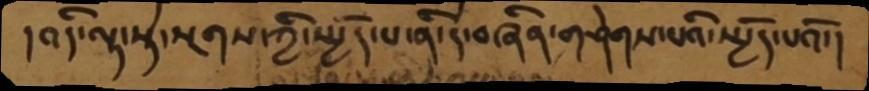།འདི་ལྟ་སྟེ་སྔགས་ཀྱི་སྤྱོད་པ་ནི་དེ་བཞིན་གཤེགས་པའི་སྤྱོད་པའོ་།
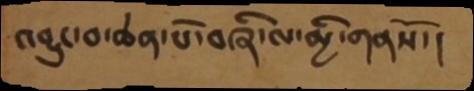འབྱུང་བ་ཆེན་པོ་བཞི་ལ་མྱི་གནསོ་།
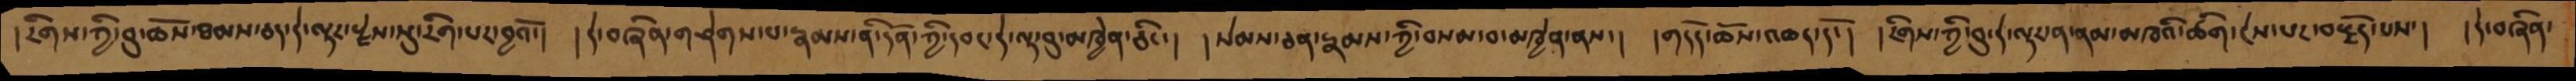།རིགས་ཀྱི་བུ་ཆོས་ཐམས་ཅད་དེ་ལྟར་རྗེས་སུ་རིག་པར་བྱའོ་།  །དེ་བཞིན་གཤེགས་པ་རྣམས་ནི་དོན་ཀྱི་དབང་དེ་ལྟ་བུ་མཁྱེན་ཅིང་།  །སེམས་ཅན་རྣམས་ཀྱི་བསམ་བ་མཁྱེན་ནས་།  །གདོད་ཆོས་འཆད་དོ་།  །རིགས་ཀྱི་བུ་དེ་ལྟར་ན་ནམ་མཁའི་ཚིག་ངེས་པར་བརྗོད་པས་།   །དེ་བཞིན་
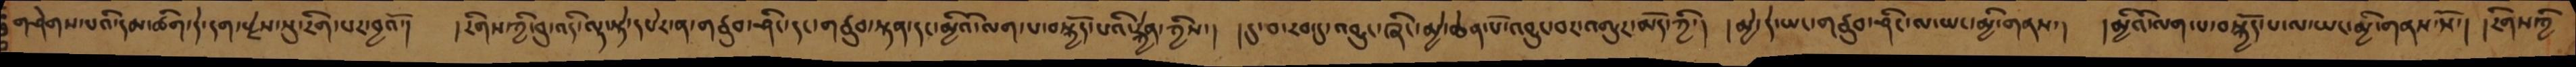གཤེགས་པའི་དམ་ཚིག་དེ་དག་རྗེས་སུ་རིག་པར་བྱའོ་།   རིགས་ཀྱི་བུ་འདི་ལྟ་སྟེ་དཔེར་ན་གཙུབ་ཤིང་དང་གཙུབ་སྟན་དང་མྱིའི་ལག་པ་བསྐྱོད་པའི་རྐྱེན་ཀྱིས་།  །དུ་བ་རབ་དུ་འབྱུང་ཞིང་མྱེ་ཆེན་པོ་འབྱུང་བར་འགྱུར་མོད་ཀྱི་།  །མྱེ་དེ་ཡང་གཙུབ་ཤིང་ལ་ཡང་མྱི་གནས་།  །མྱིའི་ལག་པ་བསྐྱོད་པ་ལ་ཡང་མྱི་གནས་སོ་།  །རིགས་ཀྱི་
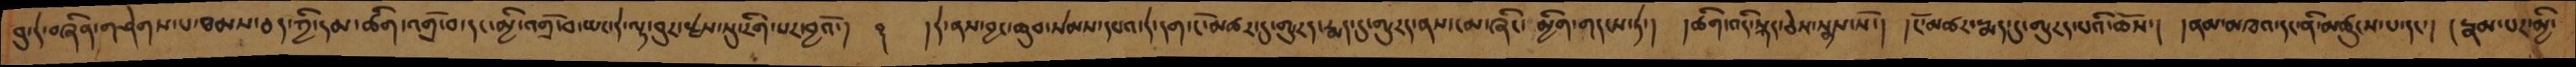བུ་དེ་བཞིན་གཤེགས་པ་ཐམས་ཅད་ཀྱི་དམ་ཚིག་འགྲོ་བ་དང་མྱི་འགྲོ་བ་ཡང་དེ་ལྟ་བུར་རྗེས་སུ་རིག་པར་བྱའོ་།  ࿑   དེ་ནས་བྱང་ཆུབ་སེམས་དཔའ་དེ་དག་ངོ་མཚར་དུ་གྱུརད་རྨད་དུ་གྱུརད་ནས་ངམ་ཞིང་མྱིག་གདངས་ཏེ་།  །ཚིག་འདི་སྐད་ཅེས་སྨྲས་སོ་། །ངོ་མཚར་རྨད་དུ་གྱུརད་པའི་ཆོས་། །ནམ་མཁའ་དང་ནི་མཚུངས་པ་དང་། །རྣམ་པར་མྱི་
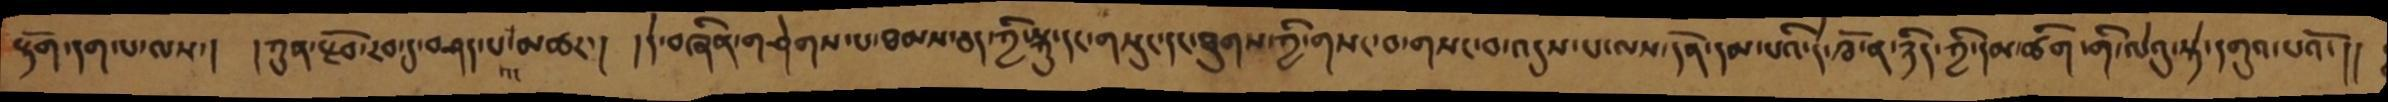རྟོག་དག་པ་ལས་།  །ཀུན་རྫོབ་རབ་དུ་བཤད་པའང་མཚར་།  །དེ་བཞིན་གཤེགས་པ་ཐམས་ཅད་ཀྱི་སྐུ་དང་གསུང་དང་ཐུགས་ཀྱི་གསང་བ་གསང་བ་འདུས་པ་ལས་དོན་དམ་པའི་དེ་ཁོ་ན་ཉིད་ཀྱི་དམ་ཚིག་གི་ལེའུ་སྟེ་དགུའ་པའོ་།།
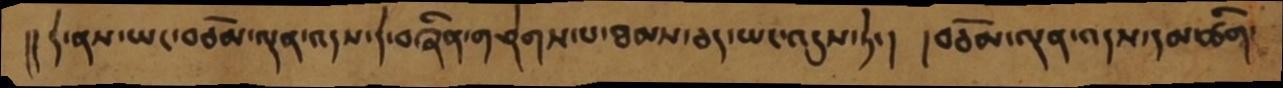།། དེ་ནས་ཡང་བཅོམ་ལྡན་འདས་དེ་བཞིན་གཤེགས་པ་ཐམས་ཅད་ཡང་འདུས་ཏེ་།  །བཅོམ་ལྡན་འདས་དམ་ཚིག་
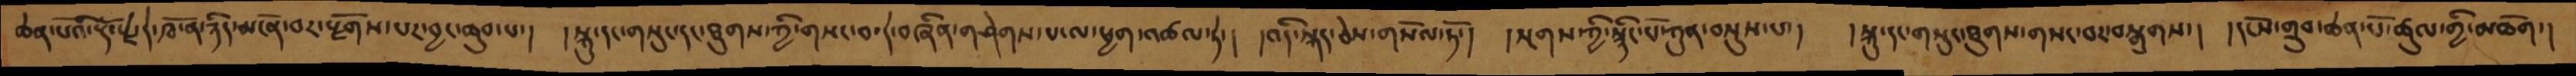ཆེན་པོའི་རྡོ་རྗེ་དེ་ཁོ་ན་ཉིད་མངོན་པར་རྫོགས་པར་བྱང་ཆུབ་པ་།  །སྐུ་གསུང་ཐུགས་ཀྱི་གསང་བ་དེ་བཞིན་གཤེགས་པ་ལ་ཕྱག་འཚལ་ཏེ་།  །འདི་སྐད་ཅེས་གསོལ་ཏོ་།  །སྔགས་ཀྱི་སྙིང་པོ་ཀུན་བསྡུས་པ་།  །སྐུ་དང་གསུང་ཐུགས་གསང་བར་བསྒྲགས་། །དངོས་གྲུབ་ཆེན་པོ་ཚུལ་གྱི་མཆོག་།
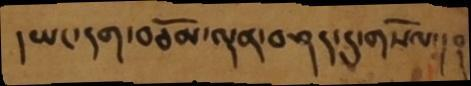།ཡང་དག་བཅོམ་ལྡན་བཤད་དུ་གསོལ་།  ༈
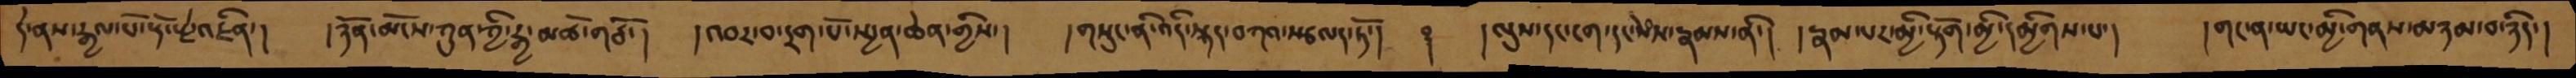དེ་ནས་རྒྱལ་པོ་རྡོ་རྗེ་འཛིན་། །ཉོན་མོངས་ཀུན་ཀྱི་རྒྱ་མཚོ་གཙོ་།  །འབར་བ་དྲག་པོ་སྤྱན་ཆེན་གྱིས་།  །གསུང་ནི་འདི་སྐད་བཀའ་སྩལད་ཏོ་།  ༈  །ལུས་དང་ངག་དང་སེཾས་རྣམས་ནི་། །རྣམ་པར་མྱི་རྟོག་མྱི་དམྱིགས་པ་།   །གང་ན་ཡང་མྱི་གནས་མཉམ་བ་ཉིད་།
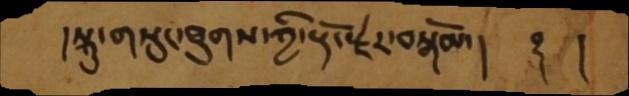།སྐུ་གསུང་ཐུགས་ཀྱི་རྡོ་རྗེར་བསྒོམ་།    ༈    །
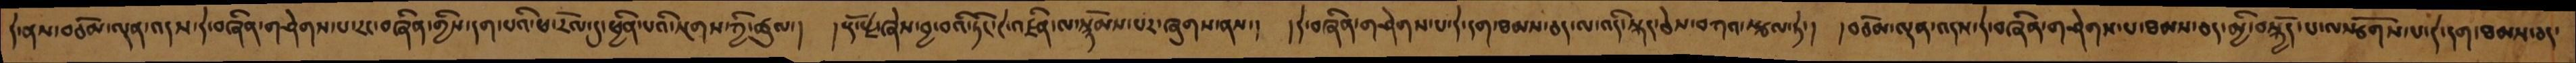དེ་ནས་བཅོམ་ལྡན་འས་དེ་བཞིན་གཤེགས་པ་རང་བཞིན་གྱིས་དག་པའི་ཕ་རོལ་དུ་ཕྱིན་པའི་སྔགས་ཀྱི་ཚུལ་།  །རྡོ་རྗེ་ཞེས་བྱ་བའི་ཏིང་ངེ་འཛིན་ལ་སྙོམས་པར་ཞུགས་ནས་།  །དེ་བཞིན་གཤེགས་པ་དེ་དག་ཐམས་ཅད་ལ་འདི་སྐད་ཅེས་བཀའ་སྩལ་ཏེ་།  །བཅོམ་ལྡན་འདས་དེ་བཞིན་གཤེགས་པ་ཐམས་ཅད་མྱི་བསྐྱོད་པ་ལསྩོགས་པ་དེ་དག་ཐམས་ཅད་
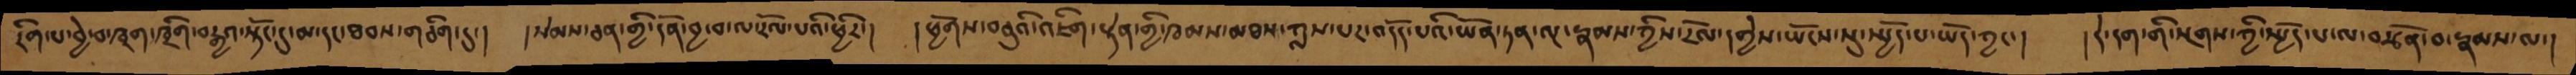རིག་པ་བྱེ་བ་ཁྲག་ཁྲིག་བརྒྱའ་སྟོང་དུ་མ་དང་ཐབས་གཅིག་ཏུ་།  །སེམས་ཅན་གྱི་དོན་བྱ་བ་ལ་རོལ་པའི་ཕྱིར་།  །ཕྱོགས་བཅུའི་འཇིག་རྟེན་གྱི་ཁམས་མཐའ་ཀླས་པར་འདོད་པའི་ཡོན་ཏན་ལྔ་རྣམས་ཀྱིས་རོལ་དགྱེས་ཡོངས་སུ་སྤྱོད་པ་ཡོད་ཀྱང་།  །དེ་དག་གི་སྔགས་ཀྱི་སྤྱོད་པ་ལ་བརྩོན་བ་རྣམས་ལ་།
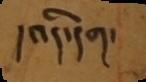།འདི་དག་
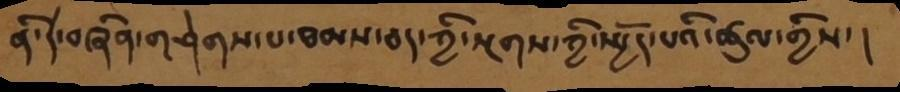ནི་དེ་བཞིན་གཤེགས་པ་ཐམས་ཅད་ཀྱི་སྔགས་ཀྱི་སྤྱོད་པའི་ཚུལ་གྱིས་།
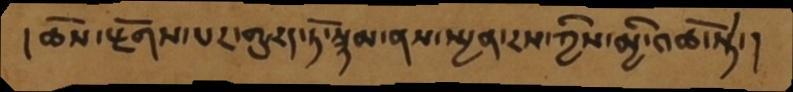།ཆོས་རྫོགས་པར་གྱུརད་ཏོ་སྙམ་ནས་སྤྱན་རས་ཀྱིས་མྱི་འཚོ་སྟེ་།
